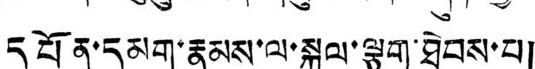དཔོན་དམག་རྣམས་ལ་སྐུལ་ལྕག་ཐེབས་པ།
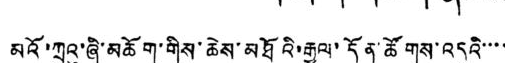མའོ་ཀྲུའུ་ཞི་མཆོག་གིས་ཆེས་མཐོའི་རྒྱལ་དོན་ཚོགས་འདུའི་་་་
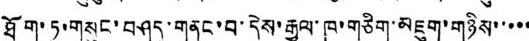ཐོག་ཏུ་གསུང་བཤད་གནང་བ་དེས་རྒྱལ་ཁ་གཅིག་མཇུག་གཉིས་་་་་
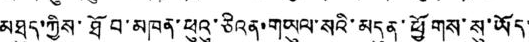མཐུད་ཀྱིས་ཐོབ་མཁན་ཕུའུ་ཅིའན་གཡུལ་སའི་མདུན་ཕྱོགས་སུ་ཡོད་
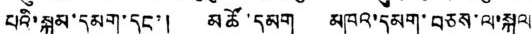པའི་སྐམ་དམག་དང་། མཚོ་དམག མཁའ་དམག་བཅས་ལ་སྐུལ་
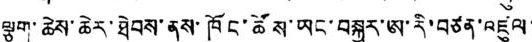ལྕག་ཆེས་ཆེར་ཐེབས་ནས་ཁོང་ཚོས་ཡང་བསྐྱར་ཨ་རི་བཙན་འཛུལ་
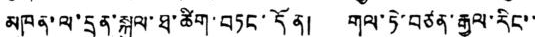མཁན་ལ་དྲན་སྐུལ་ཐ་ཚིག་བཏང་དོན། གལ་ཏེ་བཙན་རྒྱལ་རིང་་
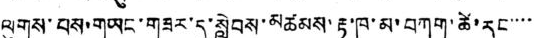ལུགས་པས་གཡང་གཟར་དུ་སླེབས་མཚམས་རྟ་ཁ་མ་བཀག་ཚེ་རང་་་་
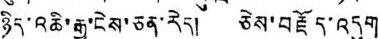ཉིད་འཆི་རྒྱུ་ངེས་ཅན་རེད། ཅེས་བརྗོད་འདུག
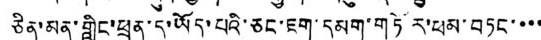ཅིན་མན་གླིང་ཕྲན་དུ་ཡོད་པའི་ཅང་ཇག་དམག་གཏོར་ཕམ་བཏང་་་་
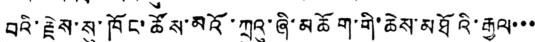བའི་རྗེས་སུ་ཁོངས་ཚོས་མའོ་ཀྲུའུ་ཞི་མཆོག་གི་ཆེས་མཐོའི་རྒྱལ་་་
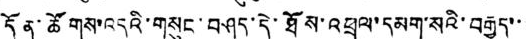དོན་ཚོགས་འདུའི་གསུང་བཤད་དེ་ཐོས་འཕྲལ་དམག་སའི་བརྒྱུད་་་
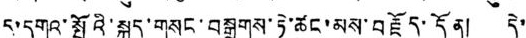དུ་དགའ་སྤྲོའི་སྐད་གསང་བསྒྲགས་ཏེ་ཚང་མས་བརྗོད་དོན། དེ་་
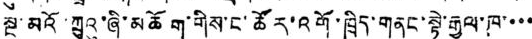སྔ་མའོ་ཀྲུའུ་ཞི་མཆོག་གིས་ང་ཚོར་འགོ་ཁྲིད་གནང་སྟེ་རྒྱལ་ཁ་་་་
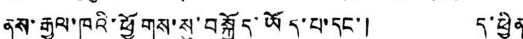ནས་རྒྱལ་ཁའི་ཕྱོགས་སུ་བསྐྱོད་ཡོད་པ་དང་། ད་ཕྱིན་
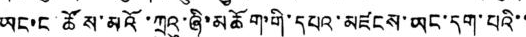ཡང་ང་ཚོས་མའོ་ཀྲུའུ་ཞི་མཆོག་གི་དཔའ་མཛངས་ཡང་དག་པའི་་་
